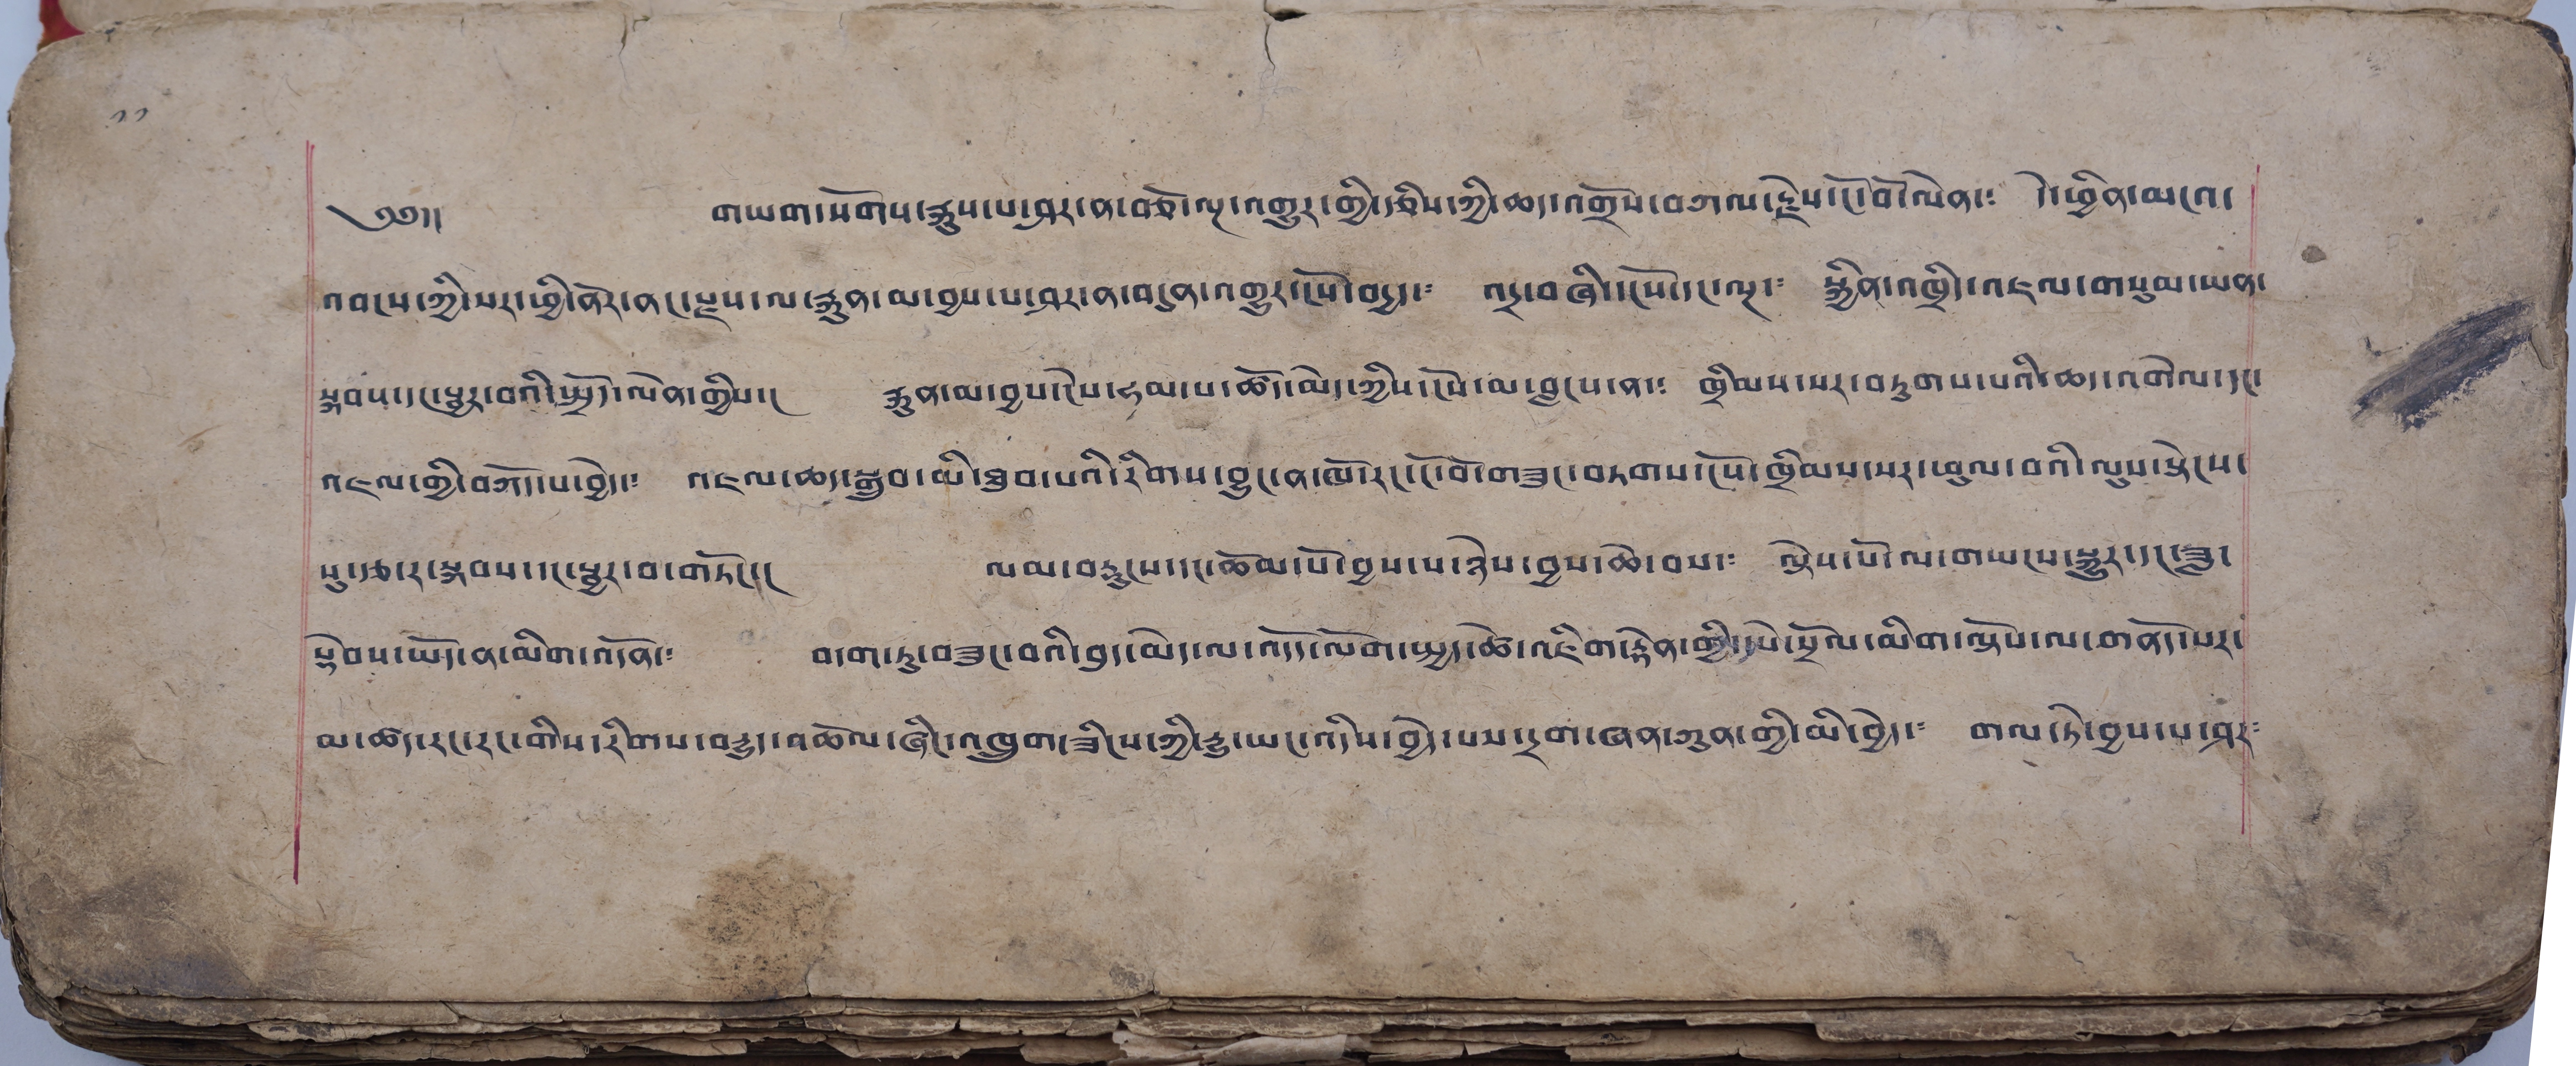༡༡
༄༅།། གཡག་སོགས་རྐུས་པ་ཤར་ན་བཅོ་ལྔ་འགྱུར་གྱི་རྩིས་ཀྱི་ཆད་འགྲོས་བཀལ་རྗེས་ངོ་བ་ལེན་༴ དེ་ཕྱིན་མངའ་
འབངས་ཀྱི་སར་ཕྱི་ནོར་ནང་རྫས་ལ་རྐུན་མ་བྱས་པ་ཤར་ན་བདུན་འགྱུར་ངོས་བདྱད་༴ འདྲ་བཞི་ངོས་དང་ལྔ་༴ སྐྱིན་འཁྲིད་འཇལ་གསུམ་ཡན་
སྐབས་དང་སྦྱོར་བའི་སྤྲོད་ལེན་གྱིས།། རྐུན་མ་བྱས་ངེས་ཧམ་པ་ཚོད་མེད་ཀྱིས་ངེས་མ་བླངས་ན་༴ ཁྲིམས་པར་བཏུགས་པའི་ཆད་འགེལ་དང་
འཇལ་གྱི་བཀོད་པ་བྱེད་༴ འཇལ་ཆད་སྒྲུབ་མི་ཐབ་པའི་རིགས་བྱུང་ན་ཁོ་རང་ངོ་བོ་གཟུང་བཏགས་ངོས་ཁྲིམས་སར་ཕུལ་བའི་ལུས་སྟེངས་
སུ་རྩ་ར་སྐབས་དང་སྦྱར་བ་གཏོང་། ལམ་བརྡུངས་དང་ཆོམ་པོ་བྱས་པ་ཉེས་བྱས་ཆེ་བས་༴ ལྟེས་པོ་ལ་གཡངས་སྐྱུར་དང་ཟླ་
སྟོབས་ཡོད་ན་མིག་འདོན་༴ བདག་ཏུ་བཟང་བའི་བུད་མེད་ལ་འདོད་ལོག་སྤྱད་ཚེ་འཇིག་རྟེན་གྱི་དཔེ་སྲོལ་མིག་ལྟོས་ལ་གནོད་པར་
མ་ཚད་རང་རང་གིས་རིགས་བརྒྱུད་འཆོལ་ཞིང་འཁྲུག་ཟིངས་ཀྱི་རྒྱུ་ཡང་འདིས་བྱེད་པས་དྲག་ཞན་ཀུན་གྱི་མི་བྱེད་༴ གལ་ཏེ་བྱས་པ་ཤར༴
